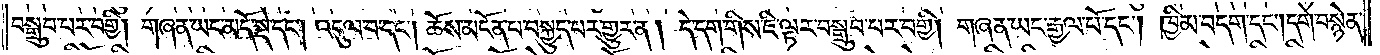བསྒྲུབ་པར་བགྱི། གཞན་ཡང་མདོ་སྡེ་དང༌། འདུལ་བ་དང༌། ཆོས་མངོན་པར་བསྐྱུད་པར་གྱུར་ན། དེ་དག་གིས་ཇི་ལྟར་བསྒྲུབ་པར་བགྱི། གཞན་ཡང་རྒྱལ་པོ་དང༌། ཁྱིམ་བདག་དང༌། དགེ་བསྙེན་
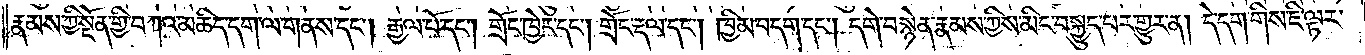རྣམས་ཀྱི་སྔོན་གྱི་བཀའ་མཆིད་དག་ལ་གནས་དང༌། རྒྱལ་པོ་དང༌། གྲོང་ཁྱེར་དང༌། གྲོང་རྡལ་དང༌། ཁྱིམ་བདག་དང༌། དགེ་བསྙེན་རྣམས་ཀྱིས་མིང་བསྐྱུད་པར་གྱུར་ན། དེ་དག་གིས་ཇི་ལྟར་
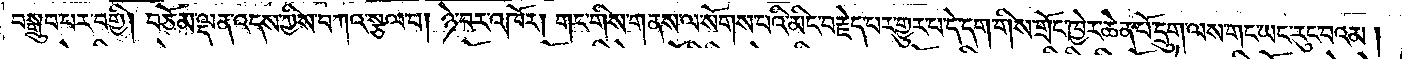བསྒྲུབ་པར་བགྱི། བཅོམ་ལྡན་འདས་ཀྱིས་བཀའ་སྩལ་པ། ཉེ་བར་འཁོར། གང་གིས་གནས་ལ་སོགས་པའི་མིང་བརྗེད་པར་གྱུར་པ་དེ་དག་གིས་གྲོང་ཁྱེར་ཆེན་པོ་དྲུག་ལས་གང་ཡང་རུང་བའམ།
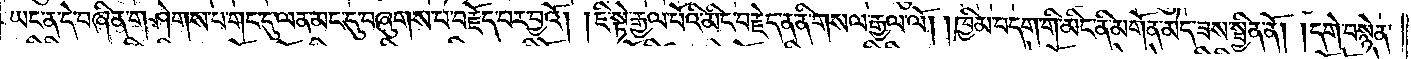ཡང་ན་དེ་བཞིན་གཤེགས་པ་གང་དུ་ལན་མང་དུ་བཞུགས་པ་བརྗོད་བར་བྱའོ། །ཇི་སྟེ་རྒྱལ་པོའི་མིང་བརྗེད་ན་ནི་གསལ་རྒྱལ་ལོ། །ཁྱིམ་བདག་གི་མིང་ནི་མགོན་མེད་ཟས་སྦྱིན་ནོ། །དགེ་བསྙེན་
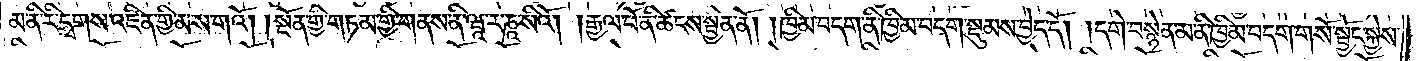མ་ནི་རི་དྭགས་འཛིན་གྱི་མ་ས་གའོ། །སྔོན་གྱི་གཏམ་གྱི་གནས་ནི་ཝཱ་ར་ཎཱ་སིའོ། །རྒྱལ་པོ་ནི་ཚངས་སྦྱིན་ནོ། །ཁྱིམ་བདག་ནི་ཁྱིམ་བདག་སྡུམས་བྱེད་དོ། །དགེ་བསྙེན་མ་ནི་ཁྱིམ་བདག་གསོ་སྦྱོང་སྐྱེས་
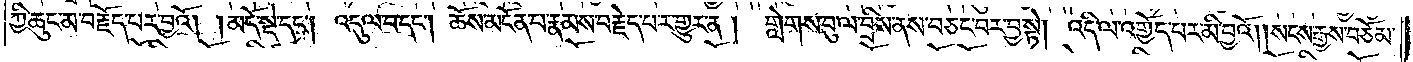ཀྱི་ཆུང་མ་བརྗོད་པར་བྱའོ། །མདོ་སྡེ་དང༌། འདུལ་བ་དང༌། ཆོས་མངོན་པ་རྣམས་བརྗེད་པར་གྱུར་ན། གླེགས་བུ་ལ་བྲིས་ནས་བཅང་བར་བྱ་སྟེ། འདི་ལ་འགྱོད་པར་མི་བྱའོ། །སངས་རྒྱས་བཅོམ་
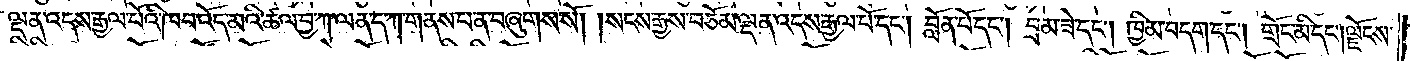ལྡན་འདས་རྒྱལ་པོའི་ཁབ་འོད་མའི་ཚལ་བྱ་ཀ་ལན་ད་ཀ་གནས་པ་ན་བཞུགས་སོ། །སངས་རྒྱས་བཅོམ་ལྡན་འདས་རྒྱལ་པོ་དང༌། བློན་པོ་དང༌། བྲམ་ཟེ་དང༌། ཁྱིམ་བདག་དང༌། གྲོང་མི་དང༌། ལྗོངས་
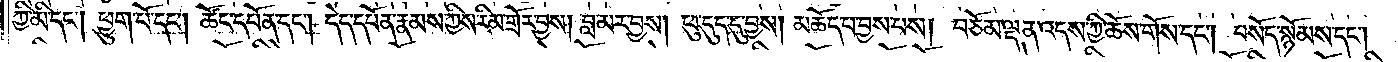ཀྱི་མི་དང༌། ཕྱུག་པོ་དང༌། ཚོང་དཔོན་དང༌། དེད་དཔོན་རྣམས་ཀྱིས་རིམ་གྲོར་བྱས། བླ་མར་བྱས། ཕུ་དུད་དུ་བྱས། མཆོད་པ་བྱས་པས། བཅོམ་ལྡན་འདས་ཀྱི་ཆོས་གོས་དང༌། བསོད་སྙོམས་དང༌།
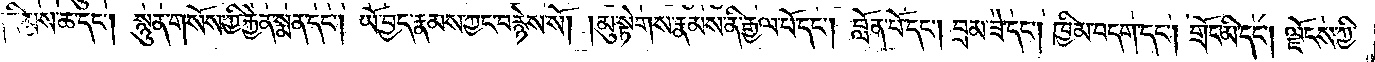གཟིམས་ཆ་དང༌། སྙུན་གསོས་ཀྱི་རྐྱེན་སྨན་དང༌། ཡོ་བྱད་རྣམས་ཀྱང་བརྙེས་སོ། །མུ་སྟེགས་རྣམས་ནི་རྒྱལ་པོ་དང༌། བློན་པོ་དང༌། བྲམ་ཟེ་དང༌། ཁྱིམ་བདག་དང༌། གྲོང་མི་དང༌། ལྗོངས་ཀྱི་
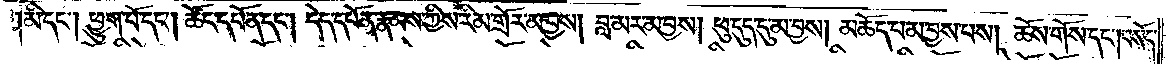མི་དང༌། ཕྱུག་པོ་དང༌། ཚོང་དཔོན་དང༌། དེད་དཔོན་རྣམས་ཀྱིས་རིམ་གྲོར་མ་བྱས། བླ་མར་མ་བྱས། ཕུ་དུད་དུ་མ་བྱས། མཆོད་པ་མ་བྱས་པས། ཆོས་གོས་དང༌། བསོད་
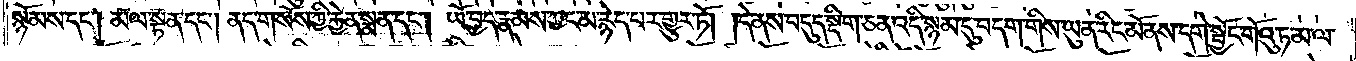སྙོམས་དང༌། མལ་སྟན་དང༌། ནད་གསོས་ཀྱི་རྐྱེན་སྨན་དང༌། ཡོ་བྱད་རྣམས་ཀྱང་མ་རྙེད་པར་གྱུར་ཏོ། །དེ་ནས་བདུད་སྡིག་ཅན་འདི་སྙམ་དུ་བདག་གིས་ཡུན་རིང་མོ་ནས་དགེ་སྦྱོང་གོའུ་ཏ་མ་ལ་
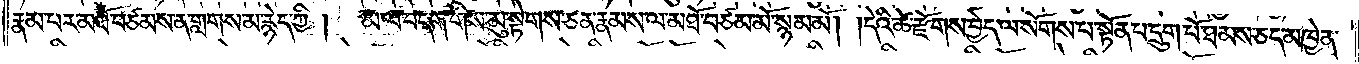རྣམ་པར་མཐོ་བཙམས་ན་གླགས་མ་རྙེད་ཀྱི། མ་ལ་བདག་གིས་མུ་སྟེགས་ཅན་རྣམས་ལ་མཐོ་བཙམ་མོ་སྙམ་མོ། །དེའི་ཚེ་རྫོགས་བྱེད་ལ་སོགས་པ་སྟོན་པ་དྲུག་པོ་ཐམས་ཅད་མཁྱེན་
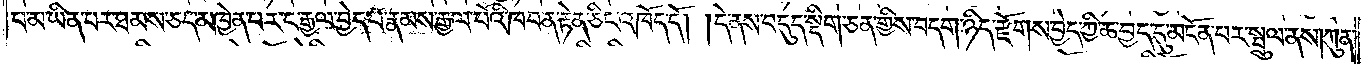པ་མ་ཡིན་པར་ཐམས་ཅད་མཁྱེན་པར་ང་རྒྱལ་བྱེད་པ་རྣམས་རྒྱལ་པོའི་ཁབ་ན་རྟེན་ཅིང་འཁོད་དོ། །དེ་ནས་བདུད་སྡིག་ཅན་གྱིས་བདག་ཉིད་རྫོགས་བྱེད་ཀྱི་ཆ་བྱད་དུ་མངོན་པར་སྦྲུལ་ནས། ཀུན་
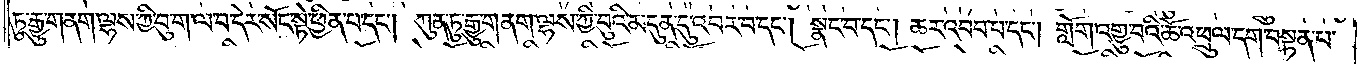ཏུ་རྒྱུ་གནག་ལྷས་ཀྱི་བུ་ག་ལ་བ་དེར་སོང་སྟེ་ཕྱིན་པ་དང༌། ཀུན་ཏུ་རྒྱུ་གནག་ལྷས་ཀྱི་བུའི་མདུན་དུ་འབར་བ་དང༌། སྣང་བ་དང༌། ཆར་འབབ་པ་དང༌། གློག་འགྱུར་བའི་ཆོ་འཕྲུལ་དག་བསྟན་པ་
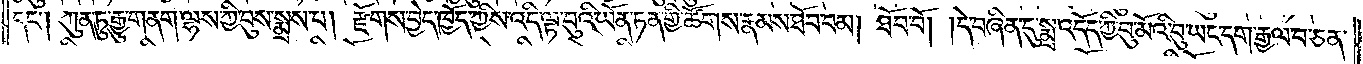དང༌། ཀུན་ཏུ་རྒྱུ་གནག་ལྷས་ཀྱི་བུས་སྨྲས་པ། རྫོགས་བྱེད་ཁྱོད་ཀྱིས་འདི་ལྟ་བུའི་ཡོན་ཏན་གྱི་ཚོགས་རྣམས་ཐོབ་བམ། ཐོབ་བོ། །དེ་བཞིན་དུ་སྨྲ་འདོད་ཀྱི་བུ་མོའི་བུ་ཡང་དག་རྒྱལ་བ་ཅན་
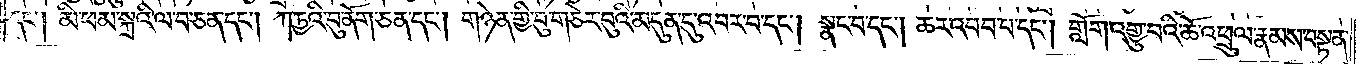དང༌། མི་ཕམ་སྐྲའི་ལ་བ་ཅན་དང༌། ཀ་ཏྱའི་བུ་ནོག་ཅན་དང༌། གཉེན་གྱི་བུ་གཅེར་བུའི་མདུན་དུ་འབར་བ་དང༌། སྣང་བ་དང༌། ཆར་འབབ་པ་དང༌། གློག་འགྱུ་བའི་ཆོ་འཕྲུལ་རྣམས་བསྟན་
